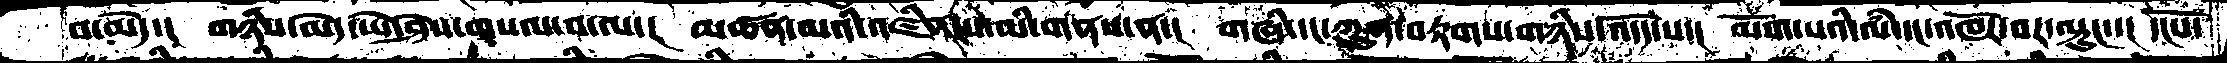བ་མེད་།  མཉིས་མེད་ཡེ་ཤེས་གསལ་བ་ལ་།  མཚན་མའི་འཛིན་པ་མི་གནས་ན་།  གཞི་དང་ཀུན་བརྟགས་གཉིས་འདོད་པ་།  ལོག་པའི་ལཾ་དང་འཁོར་བར་ལྷུང་། དངོས་
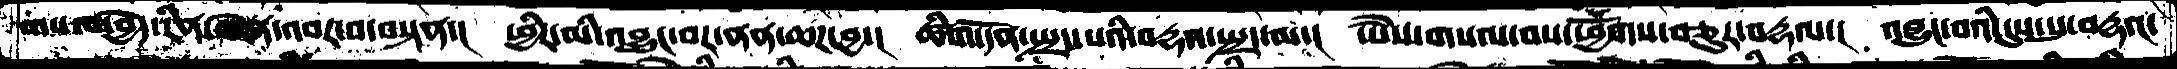གསལ་བྱེད་རིན་ཆེན་འབར་བ་བསྟན་།  ཕྱིར་མི་འབྱུང་བར་ནན་ཆཌ་བྱ་།  ཚིག་དོན་སྤྲད་པའི་བརྡའ་སྤྲད་ལ་།  ཡཻས་གསལ་བས་ཕྱོགས་བཅུར་བརྡལ་།  འབྱུང་བའི་དུས་སུ་བརྡའ་
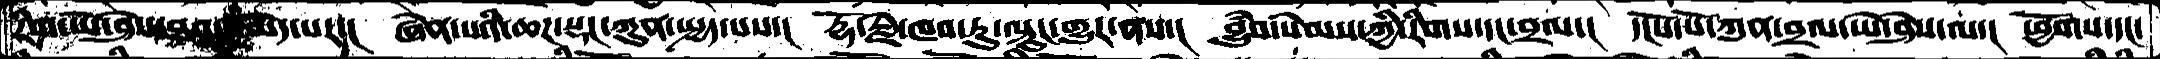རིག་ཡེ་ཤེས་མཐའ་མེད་པར་།  ཞེན་པའི་ཆཌ་སྡང་ཀུན་སྤྱད་པས་།  རྡོ་རྗེ་ཁབ་ཏུ་ལྟུང་གྱུར་ནས་།  བྱུཾབ་སེམས་ཀྱི་རིགས་དང་བྲལ་།  དངོས་པོ་ཀུན་བྲལ་ཡེ་ཤེས་ལ་།  ཕྱོགས་དང་
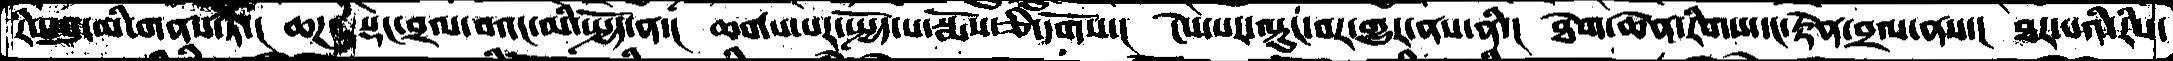རི་ལུང་མི་གནས་ཏེ་།  ཆཌ་སྡང་བྲལ་བའང་མི་སྤྱོད་ན་།  ཆགས་པར་སྤྱོད་པ་སྨོས་མི་དགོས་།  ངེས་པར་ལྟུང་བར་གྱུར་ནས་ནི་།  ཐེག་ཆེན་རིགས་དང་རྟེན་བྲལ་ནས་།  ཐར་པའི་རིས་
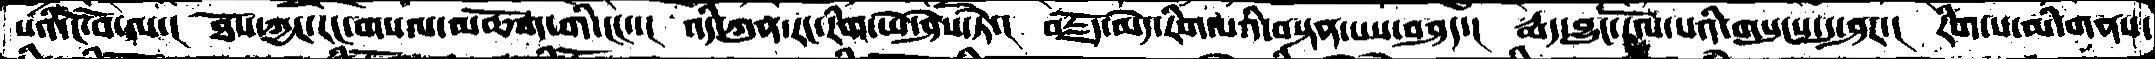པའི་ངོ་བོ་ལ་།  ཐོས་ཀྱང་རང་གསལ་མཆོག་གི་ངང་་།  འདི་ཀུན་རང་རིག་ཡེ་ཤེས་ཏེ་།  བརྗོད་མེད་རིག་པའི་བསྟན་པས་བཤད་།  རྨད་བྱུང་རོལ་པའི་གསུངས་དུ་ཤར་།  རིག་པ་མི་གནས་
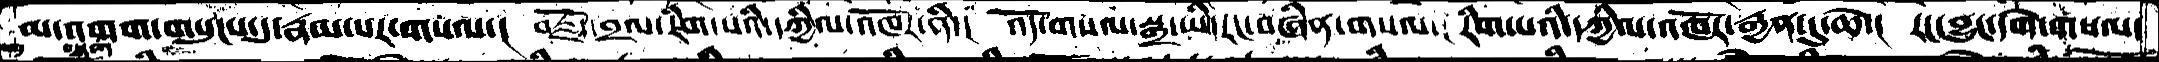མ་འགག་གསུངས་དུ་རྣམ་པར་གསལ་།  བརྗོད་བྲལ་རིག་པའི་དཀྱིལ་འཁོར་ནི་།  འོད་གསལ་སྒྲ་ཡི་རང་བཞིན་གསལ་།  རིག་པའི་དཀྱིལ་འཁོར་རྒྱན་དུ་ཆེ་། རང་བྱུང་དགེ་གསལ་
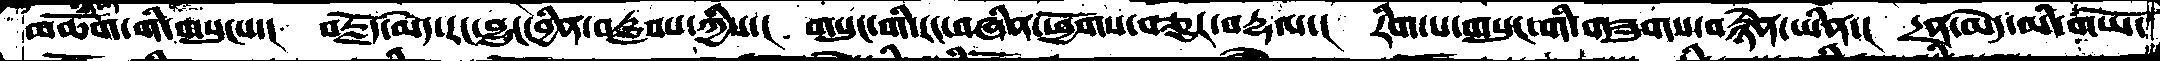མཆོག་གི་གསུངས་།  བརྗོད་མེད་རང་བྱུང་བྱིན་བརླབས་ཀྱིས་།  གསུང་གི་རང་བཞིན་ཕྱོགས་བཅུར་བརྡལ་།  རིག་པ་གསུང་གི་གཟུགས་བརྙེན་ཡིན་།  དྲན་མེད་མི་གཡོ་
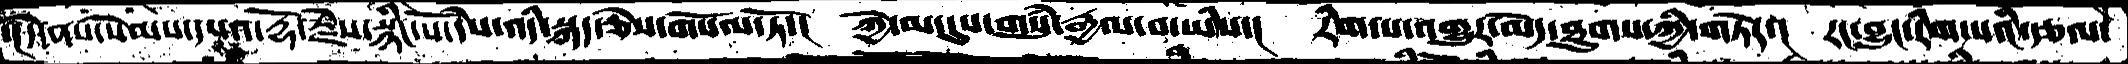་།དེ་ནས་སེམས་དཔའ་རྡོ་རྗེས་སྙིང་པོ་དེས་འདི་སྐད་ཅེས་གསོལ་ཏོ་།  ཀྱེ་མ་དུས་གསུམ་རྒྱལ་བ་ཡིས་།  རིག་པ་འགྱུར་མེད་ཐུགས་ཀྱི་གཏེར་།  རང་བྱུང་རིག་པའི་རྩལ་
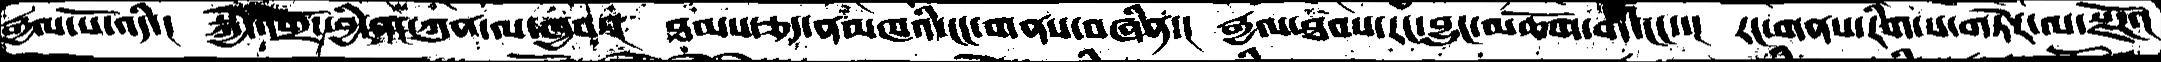རྒྱལ་པོ་འདི་།  སྐྱེ་འགྲོ་ཕྱི་ནང་ཀུན་ལ་ཁྱབ་།  ཐམས་ཅད་ནམཁའི་ངང་གནས་བཞིན་།  རྒྱལ་ཐབས་རང་བྱུང་མཆོག་གི་ངང་་།  རང་གནས་རིག་པ་གཏེར་ལ་སྫོཌ་།
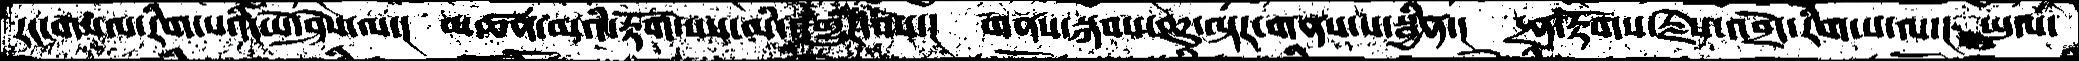རང་གསལ་རིག་པའི་ཡེ་ཤེས་ལ་།  མཚན་མའི་རྟོག་པས་མི་འགྱུར་བས་།  གནས་སྐབས་ཆུ་ལྟར་གནས་པ་སྦྱིན་།  དྲན་རྟོགས་རྗེས་འབྲེང་རིག་པ་ལ་།  ཡུལ་
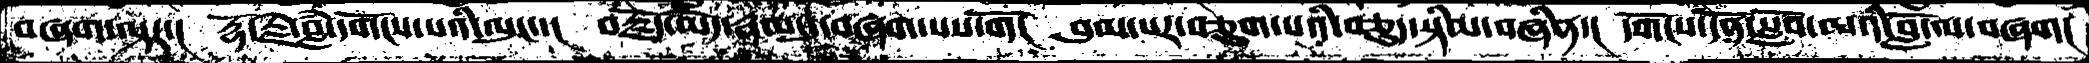བཞག་ལྟར་།  རྡོ་རྗེ་བླཾ་དགོངས་པའི་ལུང་་།  བརྗོད་མེད་རྣམ་དུ་བཞག་པས་གོ།  བུམ་པར་བཅུག་པའི་བཅུད་སྟིམ་བཞིན་།  དགོངས་དོན་སློབ་མའི་བློ་ལ་བཞག།
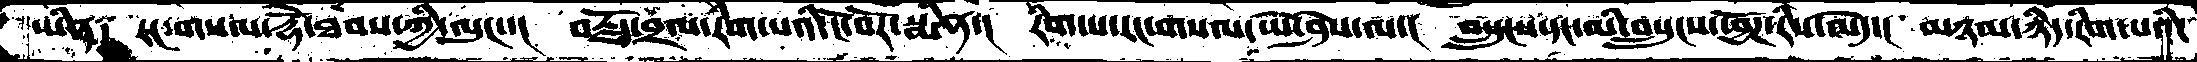ཡིན༑  རང་གསལ་རྡོེ་ཐབས་ཀྱི་ལུང་་།  བརྗོད་བྲལ་རིག་པའི་ངོ་བོར་སྨིན་།  རིག་པ་རང་གསལ་ཡེ་ཤེས་ལ་།  བསྲུངས་དང་མི་བསྲུངས་ཕྱོཌ་རིས་མེད་།  མཉམ་ཉིད་རིག་པའི་
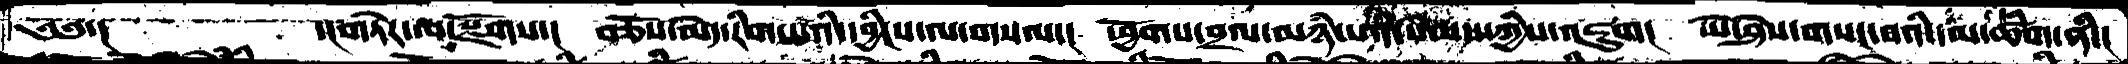༄༅་།    ་།གཏེར་ལ་སྫོགས་། བཅོས་མེད་རིག་པའི་དབྱིངས་ལ་གསལ་། ཕྱོགས་བྲལ་མཉཾ་པའི་སེམས་ཀྱིས་འཇུག། ཡེ་ཤེས་གསང་བའི་དམ་ཚིག་ནི་།
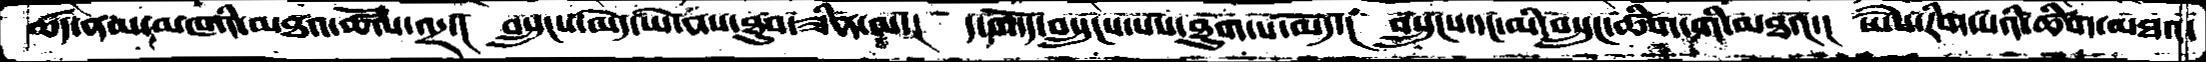ཚད་ནམ་མཁའི་མཐའ་ཚོལ་འདྲ་། བསྲུངས་མེད་ཡེ་ནས་ཐུབ་ཟིན་ལ་།  ད་གདོད་བསྲུངས་པས་ཐུག་པ་མེད་།  བསྲུངས་དང་མི་བསྲུང་ཚིག་གི་མཐའ་། ཡཻས་རིག་པའི་ཚིག་མཐའ་
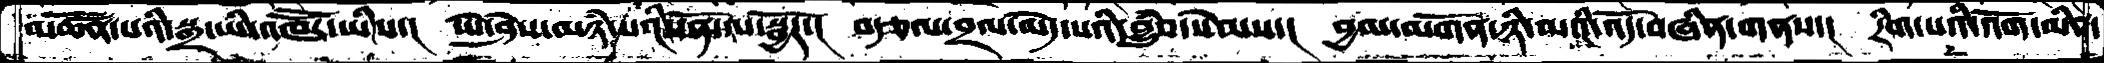མཚོན་པའི་སྒྲ་ཡི་འཁཽར་ཡིས་། ཡེ་ཤེས་མཉཾ་པའི་དོན་ལ་སྦྱོར་། བརྩལ་བྲལ་མེད་པའི་བྱུཾབ་སེམས་། བྱམ་མགོན་ཉི་མའི་འོད་བཞིན་གནས་། རིག་པའི་འོག་མིན་
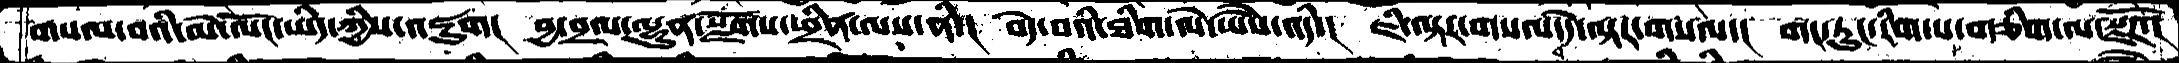གསལ་བའི་མེ་ལོང་ཡིད་ཀྱིས་འཇུག། བྱ་བྲལ་ལྷུན་སྫོགས་ཕྲིན་ལས་ནི་། བདེ་བའི་ཐིག་ལེ་ཡཻས་འདི་། ཇི་ལྟར་གསལ་བ་དེ་ལྟར་གསལ་། གང་རུང་རིག་པ་གཅིག་ལ་སྫོཌ་།
